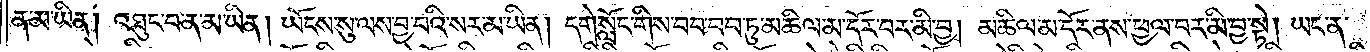ན་མ་ཡིན། འཐུང་བ་ན་མ་ཡིན། ཡོངས་སུ་ལས་བྱ་བའི་སར་མ་ཡིན། དགེ་སློང་གིས་བབ་བབ་ཏུ་མཆིལ་མ་དོར་བར་མི་བྱ། མཆིལ་མ་དོར་ནས་ཕྱལ་བར་མི་བྱ་སྟེ། ཡང་ན་
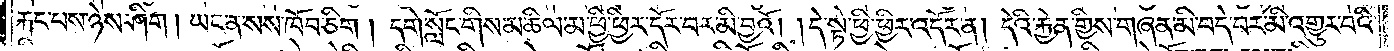རྐང་པས་ཉེས་ཤིག །ཡང་ན་སས་ཁོབ་ཅིག །དགེ་སློང་གིས་མཆིལ་མ་ཕྱི་ཕྱིར་དོར་བར་མི་བྱའོ། །དེ་སྟེ་ཕྱི་ཕྱིར་འདོར་ན། དེའི་རྐྱེན་གྱིས་གཞན་མི་བདེ་བར་མི་འགྱུར་བའི་
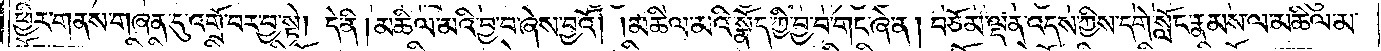ཕྱིར་གནས་གཞན་དུ་འགྲོ་བར་བྱ་སྟེ། དེ་ནི། མཆིལ་མའི་བྱ་བ་ཞེས་བྱའོ། །མཆིལ་མའི་སྣོད་ཀྱི་བྱ་བ་གང་ཞེ་ན། བཅོམ་ལྡན་འདས་ཀྱིས་དགེ་སློང་རྣམས་ལ་མཆིལ་མ་
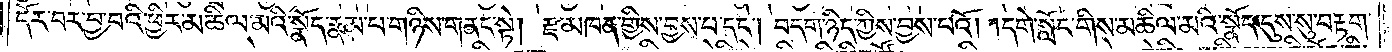དོར་བར་བྱ་བའི་ཕྱིར་མཆིལ་མའི་སྣོད་རྣམ་པ་གཉིས་གནང་སྟེ། རྫ་མཁན་གྱིས་བྱས་པ་དང༌། བདག་ཉིད་ཀྱིས་བྱས་པའོ། །དགེ་སློང་གིས་མཆིལ་མའི་སྣོད་དུས་སུ་བརྟག་
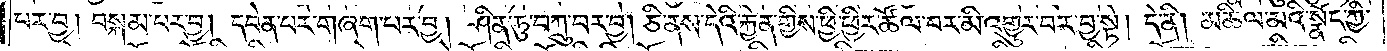པར་བྱ། བསྐམ་པར་བྱ། དབེན་པར་གཞག་པར་བྱ། ཤིན་ཏུ་བཀྲུ་བར་བྱ། ཅི་ནས་དེའི་རྐྱེན་གྱིས་ཕྱི་ཕྱིར་ཚོལ་བར་མི་འགྱུར་བར་བྱ་སྟེ། དེ་ནི། མཆིལ་མའི་སྣོད་ཀྱི་
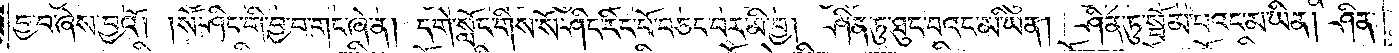བྱ་བ་ཞེས་བྱའོ། །སོ་ཤིང་གི་བྱ་བ་གང་ཞེ་ན། དགེ་སློང་གིས་སོ་ཤིང་རིང་པོ་བཅང་བར་མི་བྱ། ཤིན་ཏུ་ཐུང་བའང་མ་ཡིན། ཤིན་ཏུ་སྦོམ་པའང་མ་ཡིན། ཤིན་
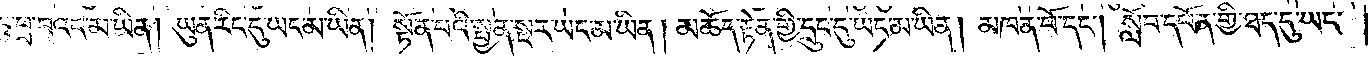ཏུ་ཕྲ་བའང་མ་ཡིན། ཡུན་རིང་དུ་ཡང་མ་ཡིན། སྟོན་པའི་སྤྱན་སྔར་ཡང་མ་ཡིན། མཆོད་རྟེན་གྱི་དྲུང་དུ་ཡང་མ་ཡིན། མཁན་པོ་དང༌། སློབ་དཔོན་གྱི་ཐད་དུ་ཡང་
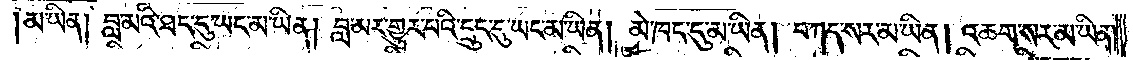མ་ཡིན། བླ་མའི་ཐད་དུ་ཡང་མ་ཡིན། བླ་མར་གྱུར་པའི་དྲུང་དུ་ཡང་མ་ཡིན། མེ་ཁང་དུ་མ་ཡིན། བཀད་སར་མ་ཡིན། འཆག་སར་མ་ཡིན་
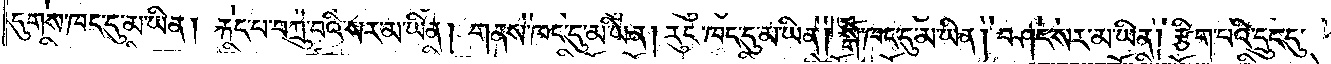དུགས་ཁང་དུ་མ་ཡིན། རྐང་པ་བཀྲུ་བའི་སར་མ་ཡིན། གནས་ཁང་དུ་མ་ཡིན། རུང་ཁང་དུ་མ་ཡིན། སྒོ་ཁང་དུ་མ་ཡིན། བཤང་སར་མ་ཡིན། རྩིག་པའི་དྲུང་དུ་
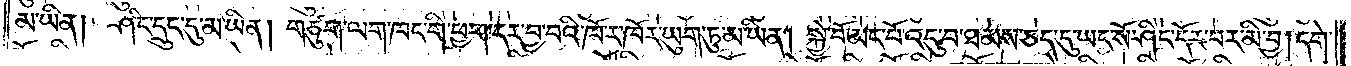མ་ཡིན། ཤིང་དྲུང་དུ་མ་ཡིན། གཙུག་ལག་ཁང་གི་ཕྱག་དར་བྱ་བའི་ཁོ་ར་ཁོར་ཡུག་ཏུ་མ་ཡིན། སྐྱེ་བོ་མང་པོ་འདུ་བ་ཐམས་ཅད་དུ་ཡང་སོ་ཤིང་དོར་བར་མི་བྱ། དགེ་
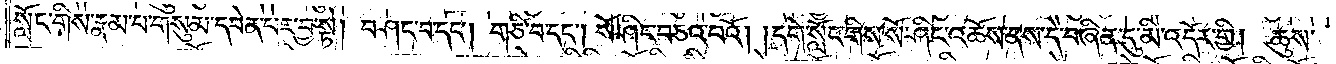སློང་གིས་རྣམ་པ་གསུམ་དབེན་པར་བྱ་སྟེ། བཤང་བ་དང༌། གཅི་བ་དང༌། སོ་ཤིང་བཅའ་བའོ། །དགེ་སློང་གིས་སོ་ཤིང་འཆོས་ནས་དེ་བཞིན་དུ་མི་འདོར་གྱི། ཆུས་
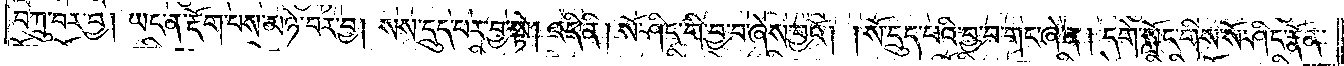བཀྲུ་བར་བྱ། ཡང་ན་རྡོག་པས་མཉེ་བར་བྱ། སས་དྲུད་པར་བྱ་སྟེ། འདི་ནི། སོ་ཤིང་གི་བྱ་བ་ཞེས་བྱའོ། །སོ་དྲུད་པའི་བྱ་བ་གང་ཞེ་ན། དགེ་སློང་གིས་སོ་ཤིང་རྣོན་
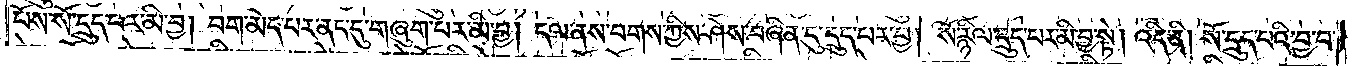པོས་སོ་དྲུད་པར་མི་བྱ། བག་མེད་པར་ནང་དུ་གཞུག་པར་མི་བྱ། དལ་ནས་བགས་ཀྱིས་ཤེས་བཞིན་དུ་དྲུད་པར་བྱ། སོ་རྙིལ་དྲུད་པར་མི་བྱ་སྟེ། འདི་ནི། སོ་དྲུད་པའི་བྱ་བ་
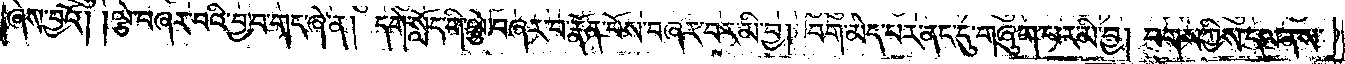ཞེས་བྱའོ། །ལྕེ་བཞར་བའི་བྱ་བ་གང་ཞེ་ན། དགེ་སློང་གི་ལྕེ་བཞར་བ་རྣོན་པོས་བཞར་བར་མི་བྱ། བག་མེད་པར་ནང་དུ་གཞུག་པར་མི་བྱ། བགས་ཀྱིས་དལ་ནས་
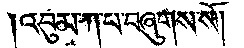༄༅། །འབུམ་ཀ་པ་བཞུགས་སོ༎
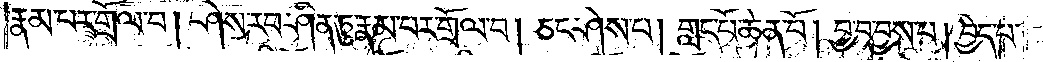རྣམ་པར་གྲོལ་བ། ཤེས་རབ་ཤིན་ཏུ་རྣམ་པར་གྲོལ་བ། ཅང་ཤེས་པ། གླང་པོ་ཆེན་པོ། བྱ་བ་བྱས་པ། བྱེད་པ་
